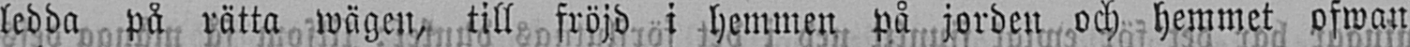ledda på rätta wägen, till fröjd i hemmen på jorden och hemmet ofwan
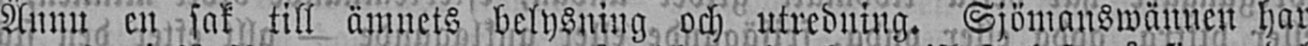Ännu en sak till ämnets belysning och utredning. Sjömanswännen har
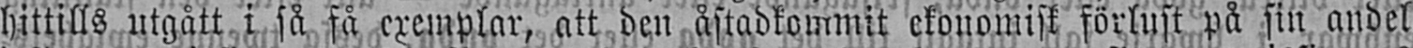hittills utgått i så få exemplar, att den åstadkommit ekonomisk förlust på sin andel
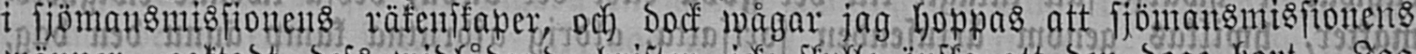i sjömansmissionens räkenskaper, och dock wågar jag hoppas att sjömansmissionens
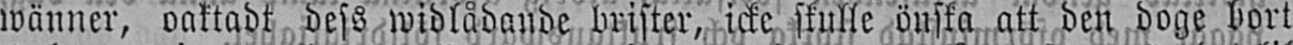wänner, oaktadt dess widlådande brister, icke skulle önska att den doge bort. Jag
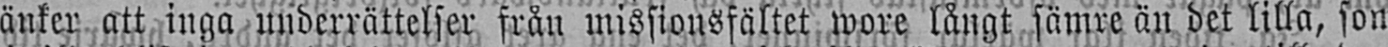tänker att inga underrättelser från missionsfältet wore långt sämre än det lilla, som
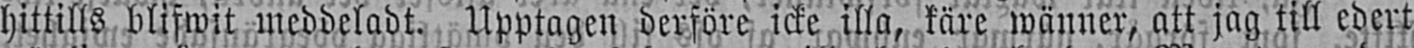hittills blifwit meddeladt. Upptagen derföre icke illa, käre wänner, att jag till edert
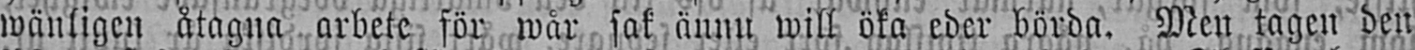wänligen åtagna arbete för wår sak ännu will öka eder börda. Men tagen den
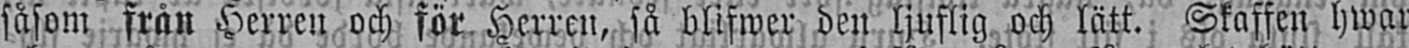såsom från Herren och för Herren, så blifwer den ljuflig och lätt. Skaffen hwar
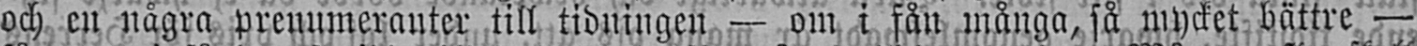och en några prenumeranter till tidningen - om i fån många, så mycket bättre -
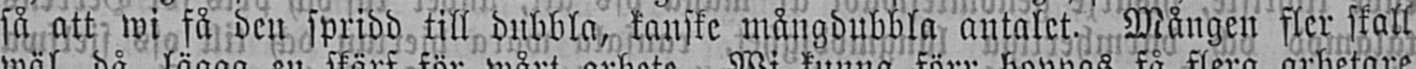så att wi få den spridd till dubbla, kanske mångdubbla antalet. Mången fler skall
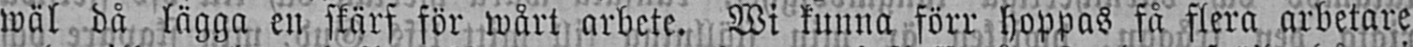wäl då lägga en skärf för wårt arbete. Wi kunna förr hoppas få flera arbetare
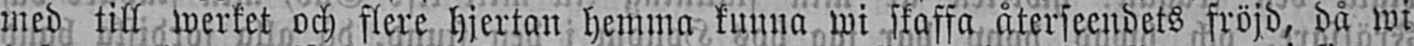med till werket och flere hjertan hemma kunna wi skaffa återseendets fröjd, då wi
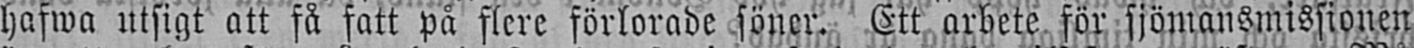hafwa utsigt att få fatt på flere förlorade söner. Ett arbete för sjömansmissionen
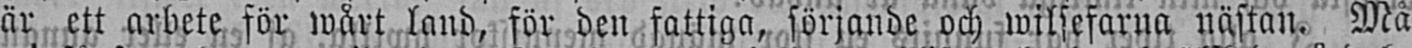är ett arbete för wårt land, för den fattiga sörjande och wilsefarna nästan. Må
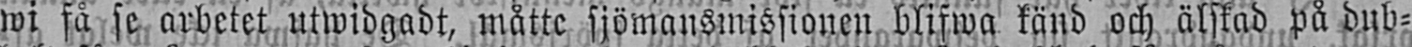wi få se arbetet utwidgadt, måtte sjömansmissionen blifwa känd och älskad på dub-
